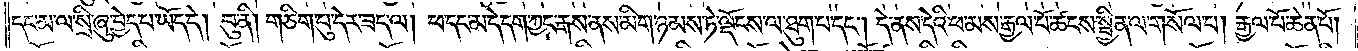དང་མ་ལ་སྲི་ཞུ་བྱེད་པ་ཡོད་དེ། བུ་ནི། གཅིག་པུ་དེར་ཟད་ལ། ཕ་དང་མ་དེ་དག་ཀྱང་རྒས་ནས་མིག་ཉམས་ཏེ་ལྡོངས་ལ་ཐུག་པ་དང༌། དེ་ནས་དེའི་ཕ་མས་རྒྱལ་པོ་ཚངས་སྦྱིན་ལ་གསོལ་པ། རྒྱལ་པོ་ཆེན་པོ།
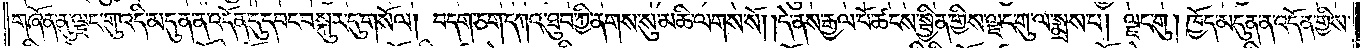གཞོན་ནུ་ལྗང་གུ་འདི་མདུན་ན་འདོན་དུ་དབང་བསྐུར་དུ་གསོལ། བདག་ཅག་དཀའ་ཐུབ་ཀྱི་ནགས་སུ་མཆི་ལགས་སོ། །དེ་ནས་རྒྱལ་པོ་ཚངས་སྦྱིན་གྱིས་ལྗང་གུ་ལ་སྨྲས་པ། ལྗང་གུ་།ཁྱོད་མདུན་ན་འདོན་གྱིས་
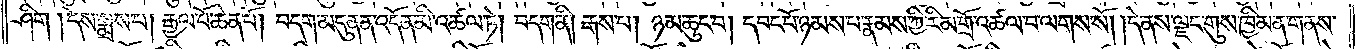ཤིག །དེས་སྨྲས་པ། རྒྱལ་པོ་ཆེན་པོ། བདག་མདུན་ན་འདོན་མི་འཚལ་ཏེ། བདག་ནི། རྒས་པ། ཉམ་ཆུང་བ། དབང་པོ་ཉམས་པ་རྣམས་ཀྱི་རིམ་གྲོ་འཚལ་བ་ལགས་སོ། །དེ་ནས་ལྗང་གུས་ཁྱིམ་ན་གནས་
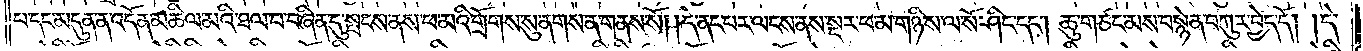པ་དང་མདུན་ན་འདོན་མཆིལ་མའི་ཐལ་བ་བཞིན་དུ་སྤངས་ནས་ཕ་མའི་གྲོགས་སུ་ནགས་ན་གནས་སོ། །དེ་ནང་པར་ལངས་ནས་སྔར་ཕ་མ་གཉིས་ལ་སོ་ཤིང་དང༌། ཆུ་གཙང་མས་བསྙེན་བཀུར་བྱེད་དོ། །དེ་
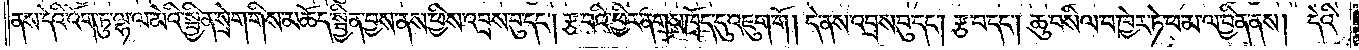ནས་དེའི་འོག་ཏུ་ལྷ་ལ་མེའི་སྦྱིན་སྲེག་གིས་མཆོད་སྦྱིན་བྱས་ནས་ཕྱིས་འབྲས་བུ་དང༌། རྩ་བའི་ཕྱིར་ནགས་ཁྲོད་དུ་འཇུག་གོ །དེ་ནས་འབྲས་བུ་དང༌། རྩ་བ་དང༌། ཆུ་བསིལ་བ་ཁྱེར་ཏེ་ཕ་མ་ལ་བྱིན་ནས། དེའི་
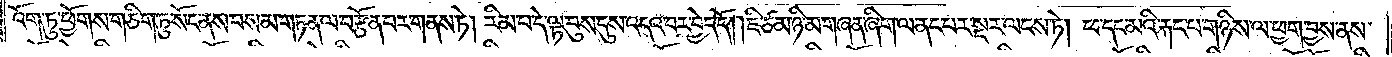འོག་ཏུ་ཕྱོགས་གཅིག་ཏུ་སོང་ནས་བསམ་གཏན་ལ་བརྩོན་པར་གནས་ཏེ། རིམ་པ་དེ་ལྟ་བུས་དུས་འདའ་བར་བྱེད་དོ། །ཇི་ཙམ་ཉི་མ་གཞན་ཞིག་ལ་ནང་པར་སྔར་ལངས་ཏེ། ཕ་དང་མའི་རྐང་པ་གཉིས་ལ་ཕྱག་བྱས་ནས་
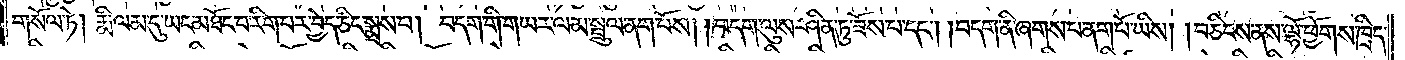གསོལ་ཏེ། རྨི་ལམ་དུ་ཡང་མཐོང་བ་རིག་པར་བྱེད་ཅིང་སྨྲས་པ། བདག་གི་གཡར་ལམ་སྦྲུལ་ནག་པོས། །བདག་ལུས་ཤིན་ཏུ་ཟོས་པ་དང༌། །བདག་ནི་ཞགས་པ་ནག་པོ་ཡིས། །བཅིངས་ནས་ལྷོ་ཕྱོགས་ཁྲིད་
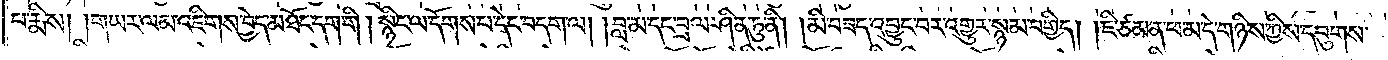པ་རྨིས། །གཡར་ལམ་འཇིགས་བྱེད་མཐོང་དག་གི །སྙིང་ལ་དོགས་པ་དེང་བདག་ལ། །བླ་མ་དང་བྲལ་ཤིན་ཏུ་ནི། །མི་བཟད་འབྱུང་བར་འགྱུར་སྙམ་བགྱིད། །ཇི་ཙམ་ན་ཕ་མ་དེ་གཉིས་ཀྱིས་དབུགས་
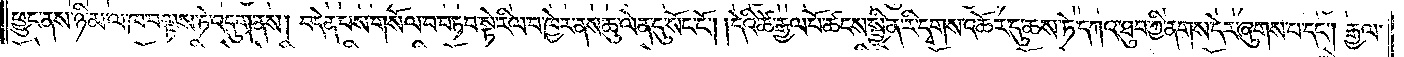ཕྱུང་ནས་ཉི་མ་ལ་ཁ་བལྟས་ཏེ་འདུག་ནས། བདེན་པས་གསོལ་བ་བཏབ་སྟེ་རིལ་བ་ཁྱེར་ནས་ཆུ་ལེན་དུ་སོང་ངོ༌། །དེའི་ཚེ་རྒྱལ་པོ་ཚངས་སྦྱིན་རི་དྭགས་འཆོར་དུ་ཆས་ཏེ་དཀའ་ཐུབ་ཀྱི་ནགས་དེར་ཞུགས་པ་དང༌། རྒྱལ་
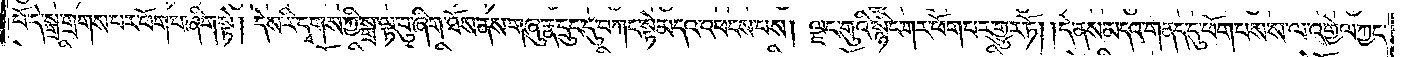པོ་དེ་སྒྲ་གྲགས་པར་ཕོག་པ་ཞིག་སྟེ། དེས་རི་དྭགས་ཀྱི་སྒྲ་ལྟ་བུ་ཞིག་ཐོས་ནས་གཞུ་རྣ་དྲུང་དུ་བཀང་སྟེ་མདའ་འཕངས་པས། ལྗང་གུའི་སྙིང་གར་ཕོག་པར་གྱུར་ཏོ། །དེ་ནས་མདའ་གནད་དུ་ཕོག་པས་ས་ལ་འགྱེལ་ཀྱང་
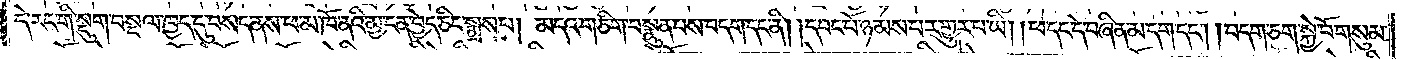དེ་རང་གི་སྡུག་བསྔལ་ཁྱད་དུ་བསད་ནས་ཕ་མ་ཁོ་ནའི་མྱ་ངན་བྱེད་ཅིང་སྨྲས་པ། མདའ་གཅིག་བསྣུན་པས་བདག་དང་ནི། །དབང་པོ་ཉམས་པར་གྱུར་པ་ཡི། །ཕ་དང་དེ་བཞིན་མ་དག་དང༌། །བདག་ཅག་སྐྱེ་བོ་གསུམ་
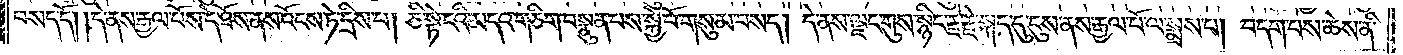བསད་དོ། །དེ་ནས་རྒྱལ་པོས་དེ་ཐོས་ནས་འོངས་ཏེ་དྲིས་པ། ཅི་སྟེ་ངའི་མདའ་གཅིག་བསྣུན་པས་སྐྱེ་བོ་གསུམ་བསད། དེ་ནས་ལྗང་གུས་སྙིང་རྗེ་རྗེ་སྐད་དུ་དུས་ནས་རྒྱལ་པོ་ལ་སྨྲས་པ། བདག་པས་ཆེས་ནི་
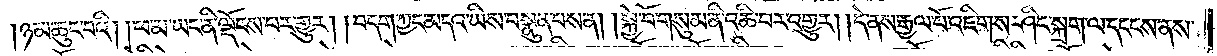།ཉམ་ཆུང་བའི། །ཕ་མ་ཡང་ནི་ལྡོངས་པར་གྱུར། །བདག་ཀྱང་མདའ་ཡིས་བསྣུན་པས་ན། །སྐྱེ་བོ་གསུམ་ནི་འཆི་བར་འགྱུར། །དེ་ནས་རྒྱལ་པོ་འཇིགས་ཤིང་སྐྲག་ལ་དངངས་ནས་
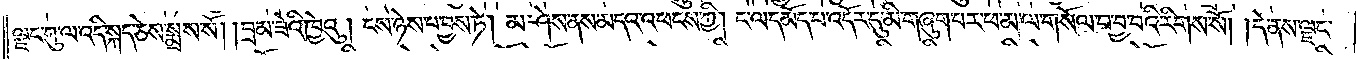ལྗང་གུ་ལ་འདི་སྐད་ཅེས་སྨྲས་སོ། །བྲམ་ཟེའི་ཁྱེའུ། ངས་ཉེས་པ་བྱས་ཏེ། མ་ཤེས་ནས་མདའ་འཕངས་ཀྱི། ང་ལ་དམོད་པ་འདོར་དུ་མི་གཞུག་པར་ཕ་མ་ལ་གསོལ་བ་བྱ་བའི་རིགས་སོ། །དེ་ནས་ལྗང་
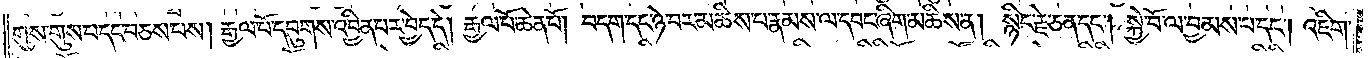གུས་གུས་པ་དང་བཅས་པས། རྒྱལ་པོ་དབུགས་འབྱིན་པར་བྱེད་དེ། རྒྱལ་པོ་ཆེན་པོ། བདག་དང་ཉེ་བར་མཆིས་པ་རྣམས་ལ་དབང་ཞིག་མཆིས་ན། སྙིང་རྗེ་ཅན་དང༌། སྐྱེ་བོ་ལ་བྱམས་པ་དང༌། འཇིག་
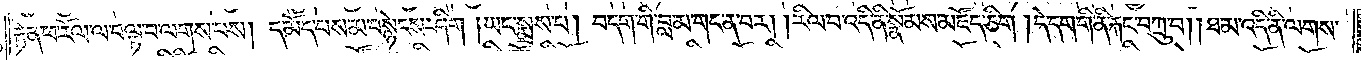རྟེན་ཕ་རོལ་ལ་བལྟ་བ་ལགས་པས། དམོད་པས་མ་བསྙེངས་ཤིག །ཡང་སྨྲས་པ། བདག་གི་བླ་མ་གང་ན་བར། །རིལ་བ་འདི་ནི་སྣོམས་མཛོད་ཅིག །དེ་དག་གི་ནི་རྐང་བཀྲུ་བ། །ཐ་མ་འདི་ནི་ལགས་
